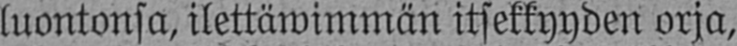luontonsa, ilettäwimmän itsekkyyden orja,
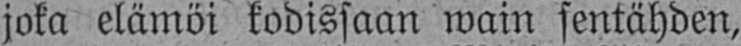joka elämöi kodissaan wain sentähden,
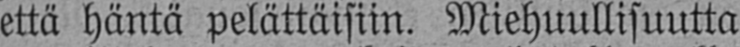että häntä pelättäisiin. Miehuullisuutta
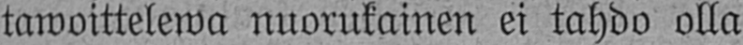tawoittelewa nuorukainen ei tahdo olla
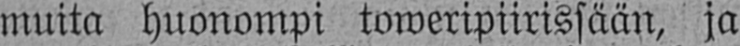muita huonompi toweripiirissään, ja
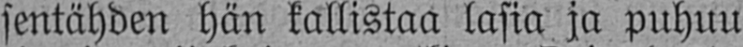sentähden hän kallistaa lasia ja puhuu
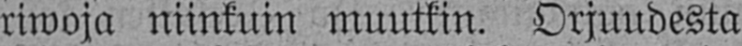riwoja niinkuin muutkin. Orjuudesta
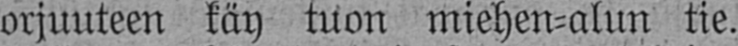orjuuteen käy tuon miehen-alun tie.
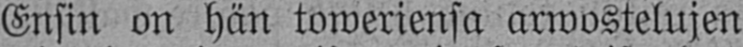Ensin on hän toweriensa arwostelujen
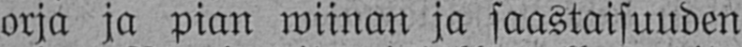orja ja pian wiinan ja saastaisuuden
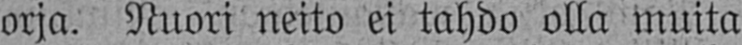orja. Nuori neito ei tahdo olla muita
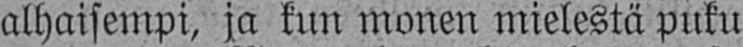alhaisempi, ja kun monen mielestä puku
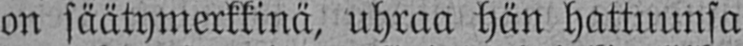on säätymerkkinä, uhraa hän hattuunsa
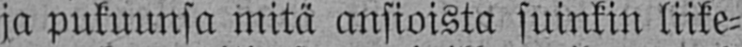ja pukuunsa mitä ansioista suinkin liike-
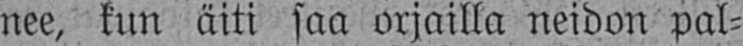nee, kun äiti saa orjailla neidon pal-
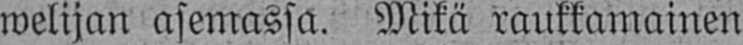welijan asemassa. Mikä raukkamainen
